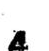4
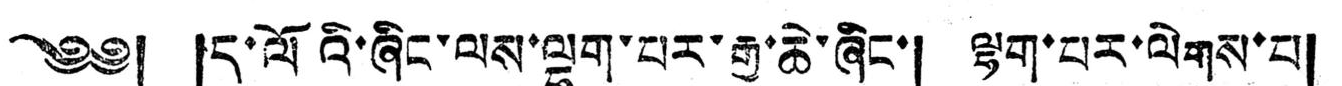༄༅། །ད་ལོའི་ཞིང་ལས་ལྷག་པར་རྒྱ་ཆེ་ཞིང་། ལྷག་པར་ལེགས་པ།
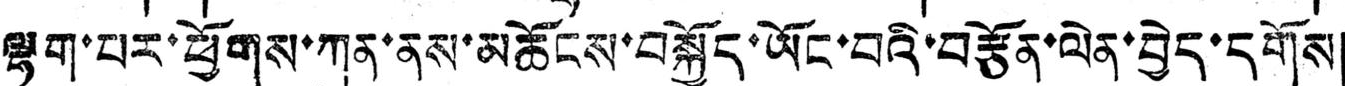ལྷག་པར་ཕྱོགས་ཀུན་ནས་མཆོངས་བསྐྱོད་ཡོང་བའི་བརྩོན་ལེན་བྱེད་དགོས།
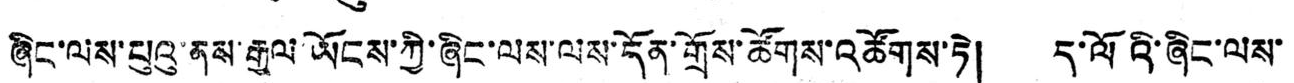ཞིང་ལས་པུའུ་ནས་རྒྱལ་ཡོངས་ཀྱི་ཞིང་ལས་ལས་དོན་གྲོས་ཚོགས་འཚོགས་ཏེ། ད་ལོའི་ཞིང་ལས་
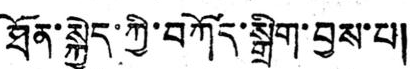ཐོན་སྐྱེད་ཀྱི་བཀོད་སྒྲིག་བྱས་པ།
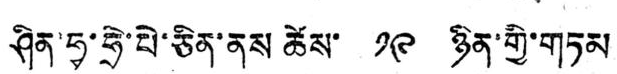ཤིན་ཧྭ་ཧྲེ་པེ་ཅིན་ནས ཚེས་ ༡༩ ཉིན་གྱི་གཏམ
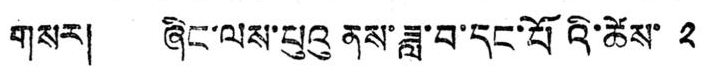གསར། ཞིང་ལས་པུའུ ནས་ཟླ་བ་དང་པོའི་ཚེས་ ༢
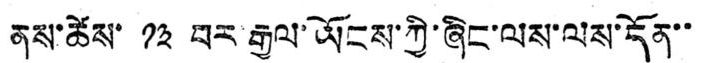ནས་ཚེས་ ༡༣ བར་རྒྱལ་ཡོངས་ཀྱི་ཞིང་ལས་ལས་དོན་་
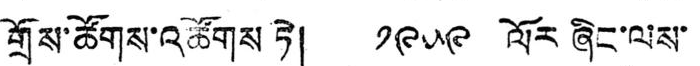གྲོས་ཚོགས་འཚོགས ཏེ། ༡༩༥༩ ལོར ཞིང་ལས་
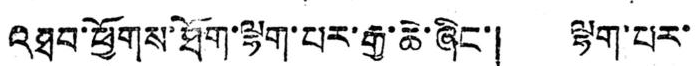འཐབ་ཕྱོགས་ཐོག་ལྷག་པར་རྒྱ་ཆེ་ཞིང་། ལྷག་པར་
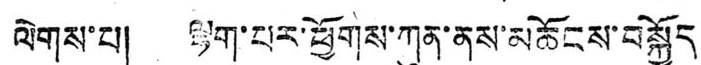ལེགས་པ། ལྷག་པར་ཕྱོགས་ཀུན་ནས་མཆོངས་བསྐྱོད
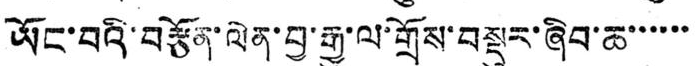ཡོང་བའི་བརྩོན་ལེན་བྱ་རྒྱུ་ལ་གྲོས་བསྡུར་ཞིབ་ཆ་་་་་་
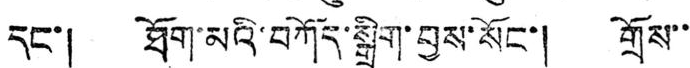དང་། ཐོག་མའི་བཀོད་སྒྲིག་བྱས་སོང་། གྲོས་་
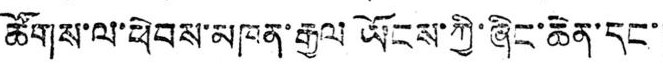ཚོགས་ལ་ཕེབས་མཁན་རྒྱལ ཡོངས་ཀྱི་ཞིང་ཆེན་དང་།
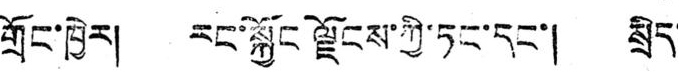གྲོང་ཁྱེར། རང་སྐྱོང ལྗོངས་ཀྱི་ཏང་དང་། སྲིད་
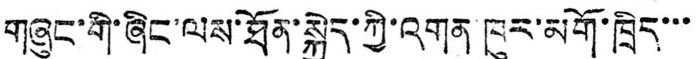གཞུང་གི་ཞིང་ལས་ཐོན་སྐྱེད་ཀྱི་འགན་ཁུར་མགོ་ཁྲིད་་་
